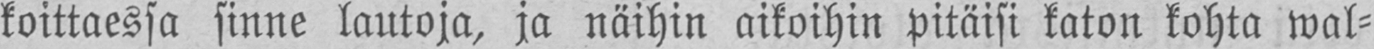koittaessa sinne lautoja, ja näihin aikoihin pitäisi katon kohta wal-
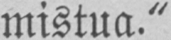mistua."
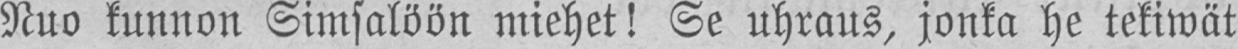Nuo kunnon Simsalöön miehet! Se uhraus, jonka he tekiwät
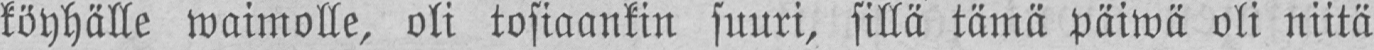köyhälle waimolle, oli tosiaankin suuri, sillä tämä päiwä oli niitä
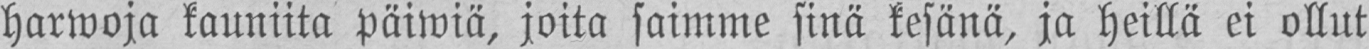harwoja kauniita päiwiä, joita saimme sinä kesänä, ja heillä ei ollut
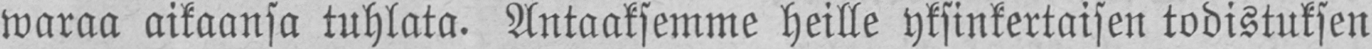waraa aikaansa tuhlata. Antaaksemme heille yksinkertaisen todistuksen
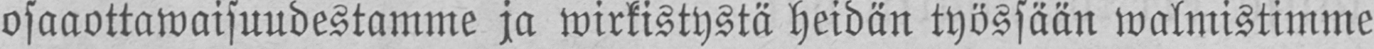osaaottawaisuudestamme ja wirkistystä heidän työssään walmistimme
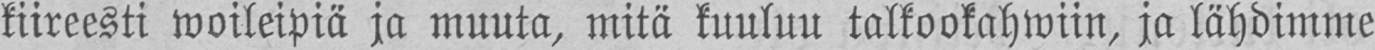kiireesti woileipiä ja muuta, mitä kuuluu talkookahwiin, ja lähdimme
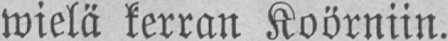wielä kerran Koörniin.
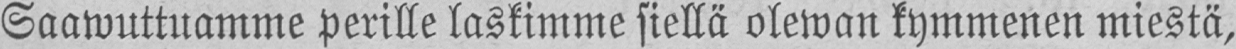Saawuttuamme perille laskimme siellä olewan kymmenen miestä,
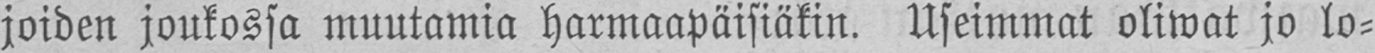joiden joukossa muutamia harmaapäisiäkin. Useimmat oliwat jo lo-
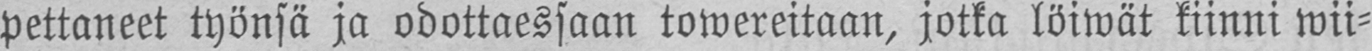pettaneet työnsä ja odottaessaan towereitaan, jotka löiwät kiinni wii-
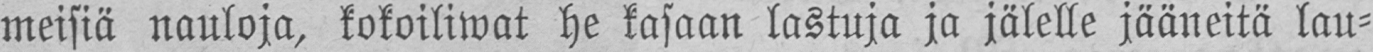meisiä nauloja, kokoiliwat he kasaan lastuja ja jälelle jääneitä lau-
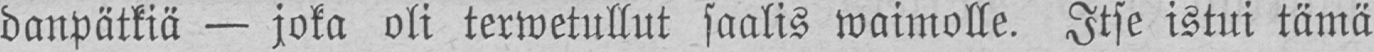danpätkiä — joka oli terwetullut saalis waimolle. Itse istui tämä
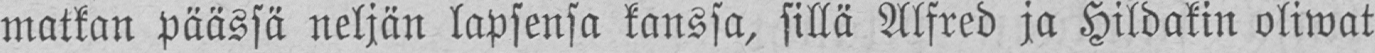matkan päässä neljän lapsensa kanssa, sillä Alfred ja Hildakin oliwat
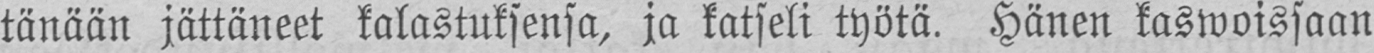tänään jättäneet kalastuksensa, ja katseli työtä. Hänen kaswoissaan
